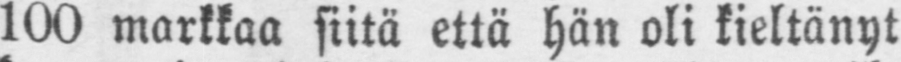100 markkaa siitä että hän oli kieltänyt
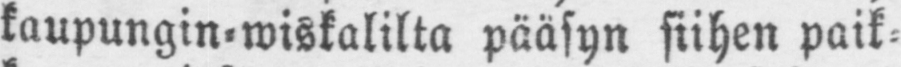kaupungin-wiskalilta pääsyn siihen paik-
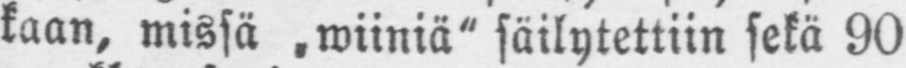kaan, missä wiiniä" säilytettiin sekä 90
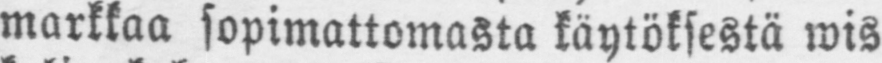markkaa sopimattomasta käytöksestä wis-
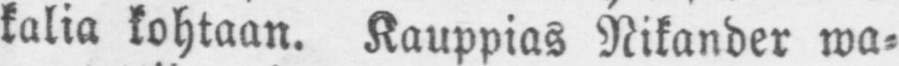kalia kohtaan. Kauppias Nikander wa-
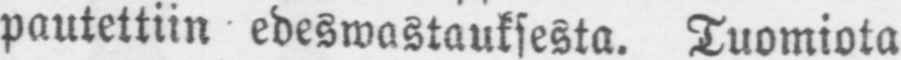pautettiin edeswastauksesta. Tuomiota
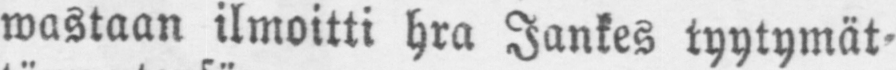wastaan ilmoitti hra Jankes tyytymät-
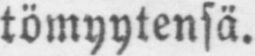tömyytensä.
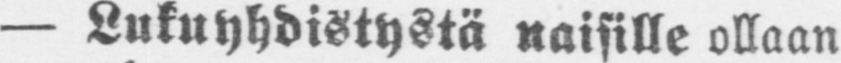— Lukuyhdistystä naisille ollaan
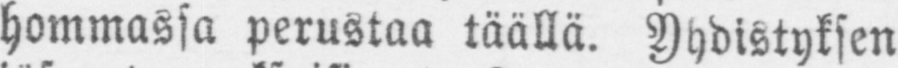hommassa perustaa täällä. Yhdistyksen
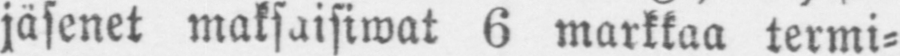jäsenet maksaisiwat 6 markkaa termi-
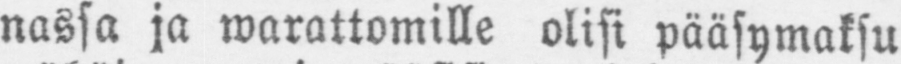nassa ja warattomille olisi pääsymaksu
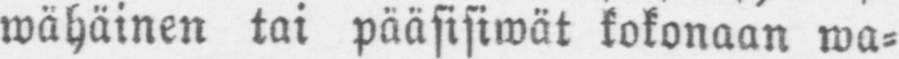wähäinen tai pääsisiwät kokonaan wa-
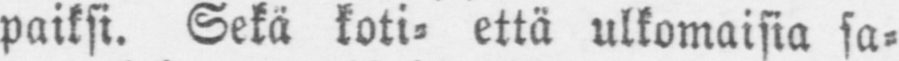paiksi. Sekä koti- että ulkomaisia sa-
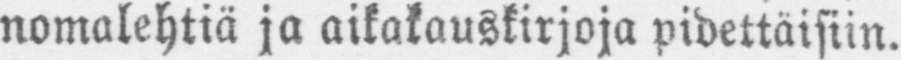nomalehtiä ja aikakauskirjoja pidettäisiin.
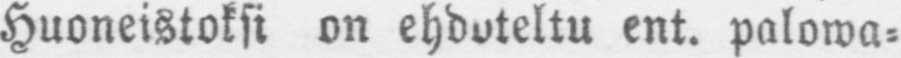Huoneistoksi on ehdoteltu ent. palowa-
